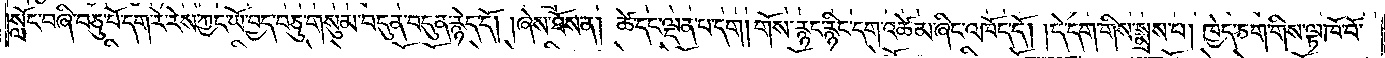སློང་བཞི་བཅུ་པོ་དག་རེ་རེས་ཀྱང་ཡོ་བྱད་བཅུ་གསུམ་བདུན་བདུན་རྙེད་དོ། །ཞེས་ཐོས་ན། ཚེ་དང་ལྡན་པ་དག། གོས་རྙང་རྙིང་དག་འཚེམ་ཞིང་འཁོད་དོ། །དེ་དག་གིས་སྨྲས་པ། ཁྱེད་ཅག་གིས་ལྟ་ཁོ་བོ་
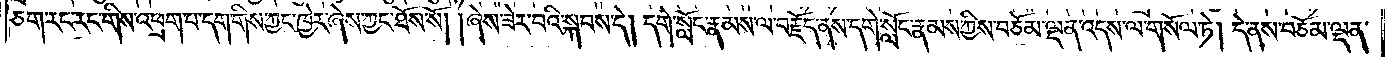ཅག་རང་རང་གིས་འཕྲག་པ་དག་གིས་ཀྱང་ཁྱེར་ཞེས་ཀྱང་ཐོས་སོ། །ཞེས་ཟེར་བའི་སྐབས་དེ། དགེ་སློང་རྣམས་ལ་བརྗོད་ནས་དགེ་སློང་རྣམས་ཀྱིས་བཅོམ་ལྡན་འདས་ལ་གསོལ་ཏེ། དེ་ནས་བཅོམ་ལྡན་
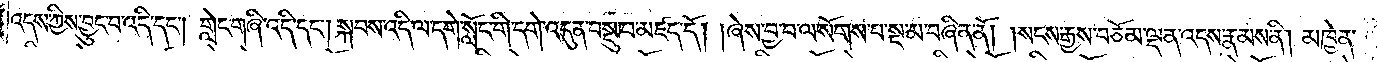འདས་ཀྱིས་བྱུང་བ་འདི་དང༌། གླེང་གཞི་འདི་དང༌། སྐབས་འདི་ལ་དགེ་སློང་གི་དགེ་འདུན་བསྡུ་བ་མཛད་དོ། །ཞེས་བྱ་བ་ལ་སོགས་པ་སྔ་མ་བཞིན་ནོ། །སངས་རྒྱས་བཅོམ་ལྡན་འདས་རྣམས་ནི། མཁྱེན་
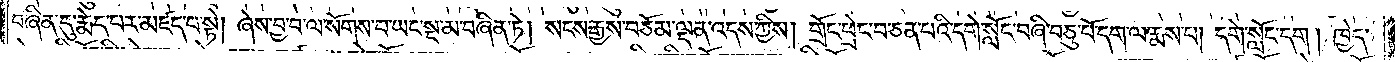བཞིན་དུ་རྨེད་པར་མཛད་པ་སྟེ། ཞེས་བྱ་བ་ལ་སོགས་པ་ཡང་སྔ་མ་བཞིན་ཏེ། སངས་རྒྱས་བཅོམ་ལྡན་འདས་ཀྱིས། གྲོང་ཕྲེང་བ་ཅན་པའི་དགེ་སློང་བཞི་བཅུ་པོ་དག་ལ་རྨས་པ། དགེ་སློང་དག །ཁྱེད་
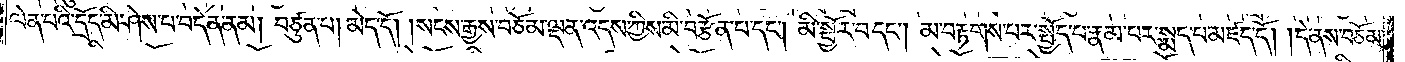ལེན་པའི་དྲོད་མི་ཤེས་པ་བདེན་ནམ། བཙུན་པ། མེད་དོ། །སངས་རྒྱས་བཅོམ་ལྡན་འདས་ཀྱིས་མི་བརྩོན་པ་དང༌། མི་སྦྱོར་བ་དང༌། མ་བརྟགས་པར་སྤྱོད་པ་རྣམ་པར་སྨད་པ་མཛད་དོ། །དེ་ནས་བཅོམ་
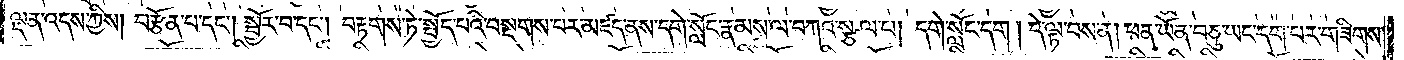ལྡན་འདས་ཀྱིས། བརྩོན་པ་དང༌། སྦྱོར་བ་དང༌། བརྟགས་ཏེ་སྤྱོད་པའི་བསྔགས་པར་མཛད་ནས་དགེ་སློང་རྣམས་ལ་བཀའ་སྩལ་པ། དགེ་སློང་དག། དེ་ལྟ་བས་ན། ཕན་ཡོན་བཅུ་ཡང་དག་པར་གཟིགས་
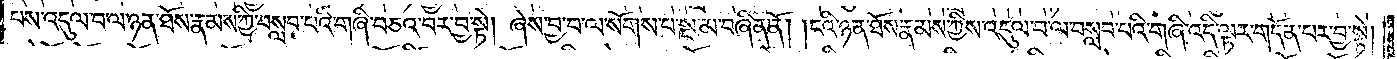པས་འདུལ་བ་ལ་ཉན་ཐོས་རྣམས་ཀྱི་བསླབ་པའི་གཞི་བཅའ་བར་བྱ་སྟེ། ཞེས་བྱ་བ་ལ་སོགས་པ་སྔ་མ་བཞིན་ནོ། །ངའི་ཉན་ཐོས་རྣམས་ཀྱིས་འདུལ་བ་ལ་བསླབ་པའི་གཞི་འདི་ལྟར་གདོན་པར་བྱ་སྟེ།
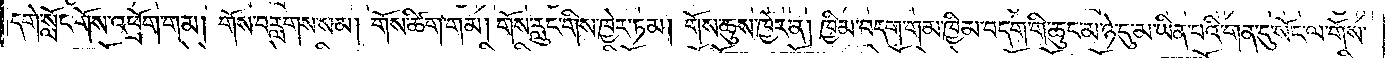དགེ་སློང་གོས་འཕྲོག་གམ། གོས་བརླགས་སམ། གོས་ཚིག་གམ། གོས་རླུང་གིས་ཁྱེར་ཏམ། གོས་ཆུས་ཁྱེར་ན། ཁྱིམ་བདག་གམ་ཁྱིམ་བདག་གི་ཆུང་མ་ཉེ་དུ་མ་ཡིན་པའི་གན་དུ་སོང་ལ་གོས་
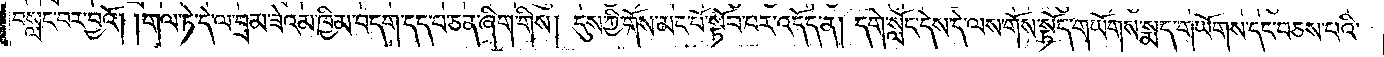བསླང་བར་བྱའོ། །གལ་ཏེ་དེ་ལ་བྲམ་ཟེའམ་ཁྱིམ་བདག་དད་པ་ཅན་ཞིག་གིས། དུས་ཀྱི་གོས་མང་པོ་སྟོབ་པར་འདོད་ན། དགེ་སློང་དེས་དེ་ལས་གོས་སྟོད་གཡོགས་སྨད་གཡོགས་དང་བཅས་པའི་
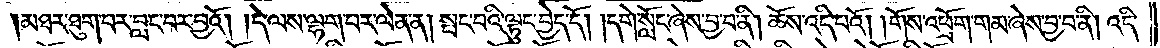མཐར་ཐུག་པར་བླང་བར་བྱའོ། །དེ་ལས་ལྷག་པར་ལེན་ན། སྤང་བའི་ལྟུང་བྱེད་དོ། །དགེ་སློང་ཞེས་བྱ་བ་ནི། ཆོས་འདི་པའོ། །གོས་འཕྲོག་གམ་ཞེས་བྱ་བ་ནི། འདི་
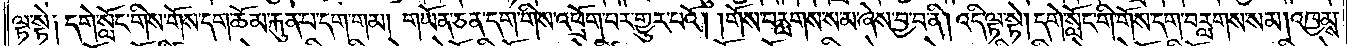ལྟ་སྟེ༑ དགེ་སློང་གིས་གོས་དག་ཆོམ་རྐུན་པ་དག་གམ། གཡོན་ཅན་དག་གིས་འཕྲོག་པར་གྱུར་པའོ། །གོས་བརླགས་ས་མ་ཞེས་བྱ་བ་ནི། འདི་ལྟ་སྟེ། དགེ་སློང་གི་གོས་དག་བརླགས་སམ། འཁྱམས་
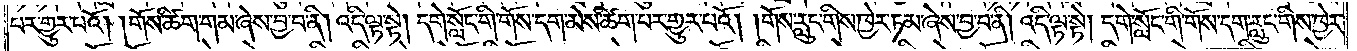པར་གྱུར་པའོ། །གོས་ཚིག་གམ་ཞེས་བྱ་བ་ནི། འདི་ལྟ་སྟེ། དགེ་སློང་གི་གོས་དག་མེས་ཚིག་པར་གྱུར་པའོ། །གོས་རླུང་གིས་ཁྱེར་ཏམ་ཞེས་བྱ་བ་ནི། འདི་ལྟ་སྟེ། དགེ་སློང་གི་གོས་དག་རླུང་གིས་ཁྱེར་
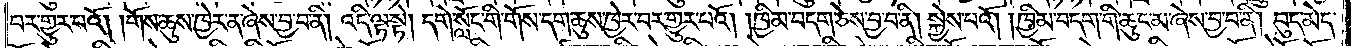བར་གྱུར་པའོ། །གོས་ཆུས་ཁྱེར་ན་ཞེས་བྱ་བ་ནི། འདི་ལྟ་སྟེ། དགེ་སློང་གི་གོས་དག་ཆུས་ཁྱེར་བར་གྱུར་པའོ། །ཁྱིམ་བདག་ཅེས་བྱ་བ་ནི། སྐྱེས་པའོ། །ཁྱིམ་བདག་གི་ཆུང་མ་ཞེས་བྱ་བ་ནི། བུད་མེད་
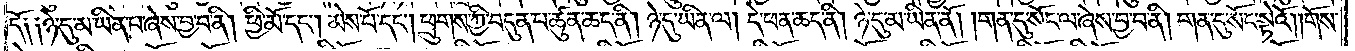དོ༑ ༑ཉེ་དུ་མ་ཡིན་པ་ཞེས་བྱ་བ་ནི། ཕྱི་མོ་དང༌། མེས་པོ་དང༌། ཕྲུགས་ཀྱི་བདུན་པ་ཚུན་ཆད་ནི། ཉེ་དུ་ཡིན་ལ། དེ་ཕན་ཆད་ནི། ཉེ་དུ་མ་ཡིན་ནོ། །གན་དུ་སོང་ལ་ཞེས་བྱ་བ་ནི། གན་དུ་སོང་སྟེའོ། །གོས་
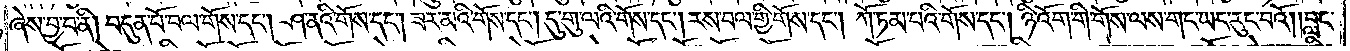ཞེས་བྱ་བ་ནི། བདུན་པོ་བལ་གོས་དང༌། ཤ་ནའི་གོས་དང༌། ཟར་མའི་གོས་དང༌། དུ་གུ་ལའི་གོས་དང༌། རས་བལ་གྱི་གོས་དང༌། ཀོ་ཏམ་པའི་གོས་དང༌། ཉི་འོག་གི་གོས་ལས་གང་ཡང་རུང་བའོ། །བླང་
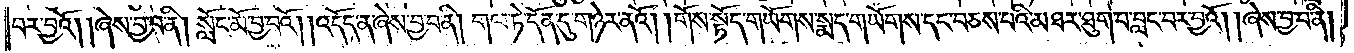བར་བྱའོ། །ཞེས་བྱ་བ་ནི། སློང་མོ་བྱ་བའོ། །འདོད་ན་ཞེས་བྱ་བ་ནི། གལ་ཏེ་དོན་དུ་གཉེར་ནའོ། །གོས་སྟོད་གཡོགས་སྨད་གཡོགས་དང་བཅས་པའི་མཐར་ཐུག་པ་བླང་བར་བྱའོ། །ཞེས་བྱ་བ་ནི།
